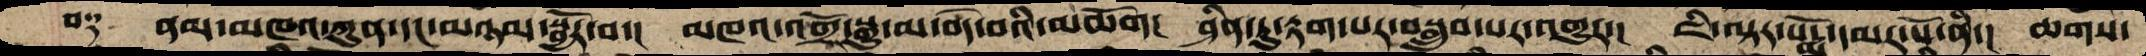བ༑   ནམ་མཁའ་ཀུན་དང་མཉམ་སྦྱོར་བ་།  མཁའ་འགྲོ་སྒྱུ་མ་བདེ་བའི་མཆོག།  ཤིན་ཏུ་རྟག་པར་བསྒྲུབ་པར་འགྱུར་།  ཇི་ལྟར་པདྨོ་དམར་པོ་ནི་།  ཆགས་
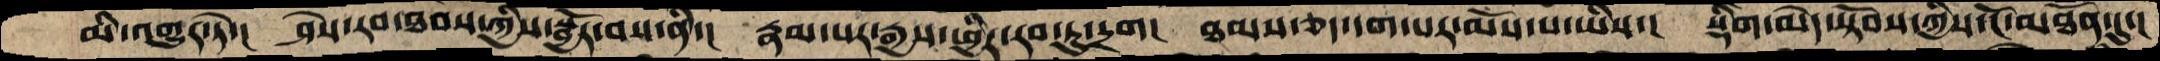མི་འགྱུར་ཏེ་།  ཤེས་རབ་ཐབས་ཀྱིས་སྦྱོར་བས་ནི་།  རྣམ་པར་རྒྱས་ཕྱིར་རབ་ཏུ་དྲག།  ཐམས་ཅད་དག་པར་མོས་པ་ཡིས་།  སྡིག་མེད་་སྟོབས་ཀྱིས་ངོ་མཐོན་དུ་།
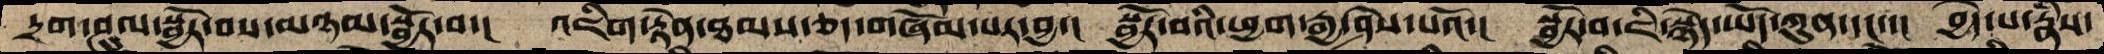དྲག་ཤུལ་སྦྱོར་བས་མཉམ་སྦྱོར་བ་།  འཇིག་རྟེན་ཐམས་ཅད་གཞོམ་པར་བྱ་།  སྦྱོར་བའི་ཕྱག་རྒྱ་ཤེས་པའོ་།  སྦྱོར་བ་ཇི་སྙེད་ཡོད་ཀུན་དང་་།  བྱེད་པ་རྣཾས་
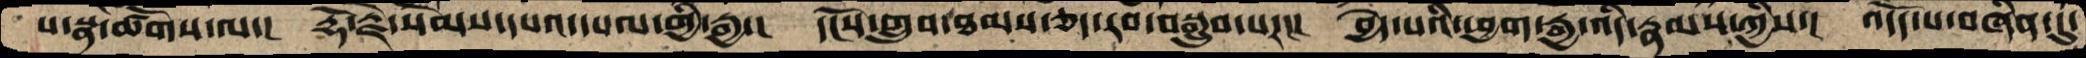པ་སྣ་ཚོགས་ལ་།  རྡོ་རྗེ་སེམས་དཔའ་དཔལ་གྱི་རྒྱ་།  དངོས་གྲུབ་ཐམས་ཅད་རབ་བསྒྲུབ་པར།།།  བྱེད་པའི་ཕྱག་རྒྱ་འདི་རྣམས་ཀྱིས་།  འདོད་པ་བཞིན་དུ་
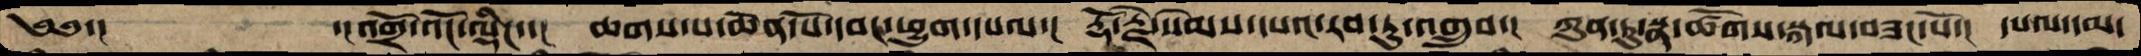༄༅་།         ་།འགྲོ་འོང་ལྡིང་་།  ཆགས་པ་ཆེན་པོ་དབང་ཕྱུག་དཔལ་།  རྡོ་རྗེ་སེམས་དཔའ་རབ་ཏུ་འགྲུབ་།  ཀུན་ཏུ་སྣ་ཚོགས་་སྐལ་བཟང་པོ་།  དཔལ་དམ་
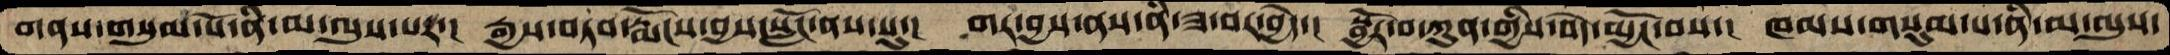གནས་གསུམ་པོ་ནི་མ་ལུས་པར་།  རྒྱས་བཏབ་རྨོངས་བྱས་སློང་ནས་སུ་།  གར་བྱས་ནས་ནི་ཟ་བར་བྱེད་།  སྦྱོར་བ་ཀུན་གྱིས་བདེ་མྱོང་བས་།  ཁམས་གསུམ་པ་ནི་མ་ལུས་
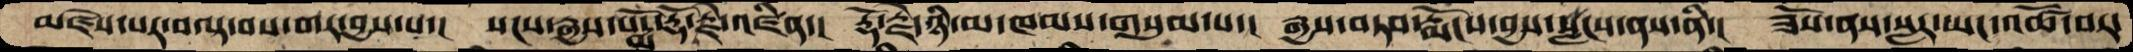མཛེས་པར་བལྟ་བས་གར་བྱས་པ་།  སངས་རྒྱས་པདྨོ་རྡོ་རྗེ་འཛིན་།  རྡོ་རྗེ་ཉི་མ་ཁམས་གསུམ་པ་།  རྒྱས་བཏབ་རྨོངས་བྱས་སླངས་ནས་ནི་།  ཟོས་ནས་སླར་ཡང་འཚོ་བར་
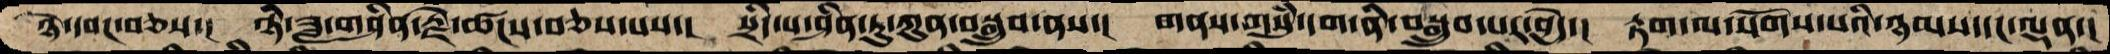ཉེ་དབང་བཅས་།  ཉི་ཟླ་གཤིན་རྗེ་ཚངས་བཅས་པས་།  སྲིད་པ་ཤིན་ཏུ་ཀུན་བསྒྲུབ་ནས་།  གནས་གསུཾ་དག་ནི་བསྒྲུབ་པར་བྱེད་།  རྟག་ལ་སོགས་པའི་ཉམས་དང་ལྡན་།
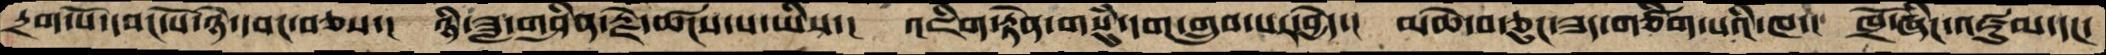དྲག་པོ་དབང་པོ་ཉེ་དབང་བཅས་།  ཉི་ཟླ་གཤིན་རྗེ་ཚངས་པ་ཡིས་།  འཇིག་རྟེན་གསུཾ་དག་གྲུབ་པར་བྱེད་།  མཆེ་བ་ཅུང་ཟང་གཙིག་པའི་ཁ་།  ཁྲོ་ཞིང་འཛུམ་དང་
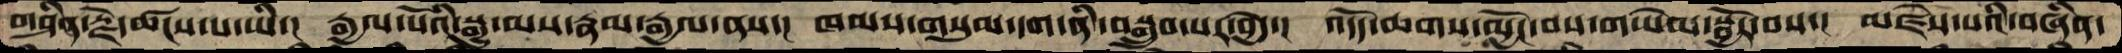གཤིན་རྗེ་ཚངས་པ་ཡིས་།  རྒྱལ་པོའི་སྐུ་ལས་རྣམ་རྒྱལ་ནས་།  ཁམས་གསུམ་དག་ནི་བསྒྲུབ་པར་བྱེད་།  འདོད་ཆགས་མྱོང་བས་གཡེམ་སྦྱོར་བས་།  མཛེས་པའི་བཞིན་
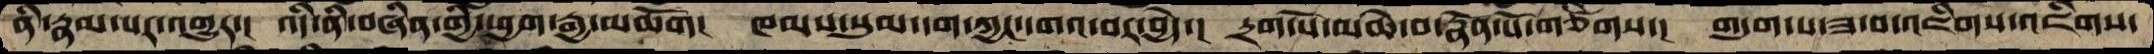ནི་རྣམ་པར་འགྱུར་།  འདི་ནི་བཞིན་གྱི་ཕྱག་རྒྱ་མཆོག།  ཁམས་གསུམ་དག་ཀྱང་དགའ་བར་བྱེད་།  དྲག་པོ་མཆེ་བ་རྣོན་པོ་གཙིགས་།  གདུག་པ་ཟ་བ་འཇིགས་འཇིགས་
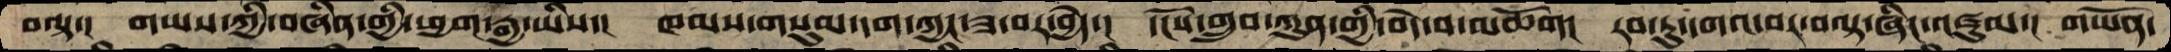བལྟ་།  གཡས་ཀྱི་བཞིན་གྱི་ཕྱག་རྒྱ་ཡིས་།  ཁམས་གསུམ་དག་ཀྱང་ཟ་བར་བྱེད་།  དངོས་གྲུབ་ཀུན་གྱི་བདེ་བ་མཆོག།  རབ་ཏུ་དགའ་བར་བལྟ་ཞིང་འཛུམ་།   གཡོན་
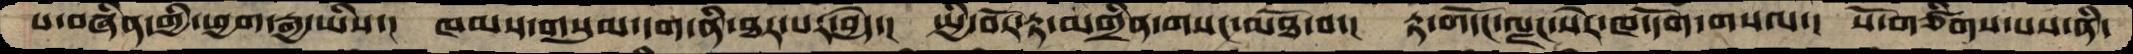པ་བཞིན་གྱི་ཕྱག་རྒྱ་ཡིས་།  ཁམས་གསུམ་དག་ནི་ཐར་པར་བྱེད་།  སྤྱི་བོར་རྟ་མགྲིན་གསང་མཐོ་བ་།  རྟ་གདོང་ལྗང་སེར་ཁ་དོག་གསལ་།  སོ་གཙིགས་པས་ནི་
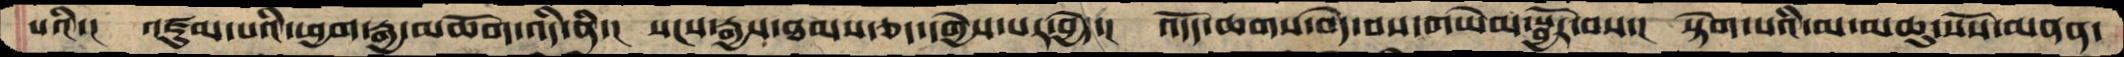པའི་།  འཛུམ་པའི་ཕྱག་རྒྱ་མཆོག་འདི་ནི་།  སངས་རྒྱས་ཐམས་ཅད་དགྱེས་པར་བྱེད་།  འདོད་ཆགས་བདེ་བས་གཡེམ་སྦྱོར་བས་།  སྟེག་པའི་མ་མཆུ་སོས་མནན་
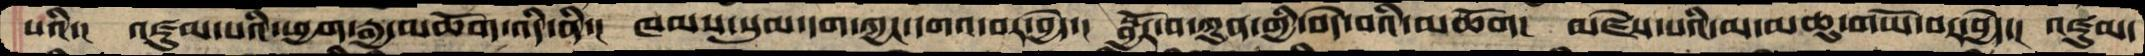པའོ་།  འཛུམ་པའི་ཕྱག་རྒྱ་མཆོག་འདི་ནི་།  ཁམས་སུམ་དག་ཀྱང་དགའ་བར་བྱེད་།  སྦྱོར་བ་ཀུན་གྱི་བདེ་བའི་མཆོག།  མཛེས་པའི་མ་མཆུ་གཡོ་བར་བྱེད་།  འཛུམ་
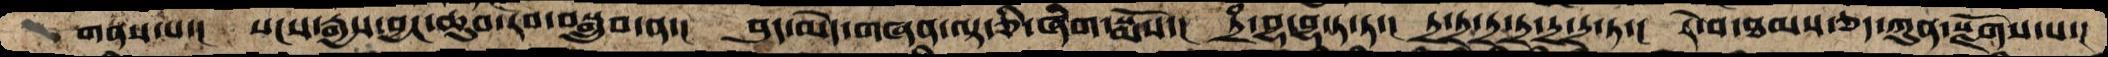གནས་པ་།  སངས་རྒྱས་བྱང་ཆུབ་རབ་བསྒྲུབ་ན་།  བུད་མེད་གཞན་ལྟ་ཅི་ཞིག་སྨོས་།  ཏྲཾ་བྷ་བྷ་ཏ་ཏ་།  ཏྲ་ཏྲ་ཏྲ་ཏྲ་ཏྲ་ཏྲ་ཏ་།  རེ་བ་ཐམས་ཅད་ཀུན་སྫོགས་པ་།
